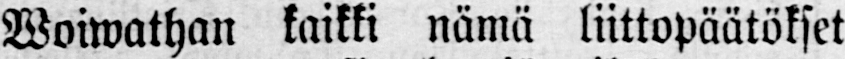Woiwathan kaikki nämä liittopäätökset
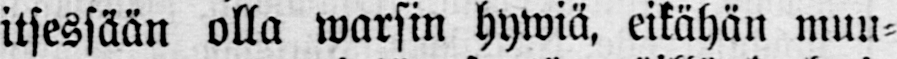itsessään olla warsin hywiä, eiköhän muu-
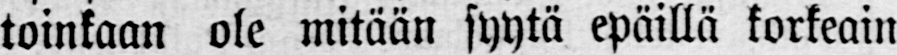toinkaan ole mitään syytä epäillä korkeain
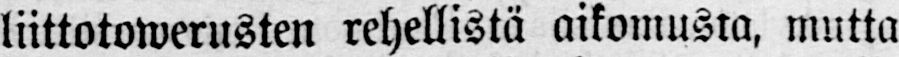liittotowerusten rehellistä aikomusta, mutta
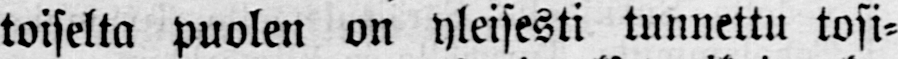toiselta puolen on yleisesti tunnettu tosi-
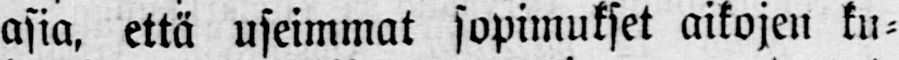asia, että useimmat sopimukset aikojen ku-
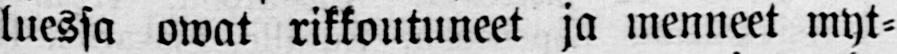luessa owat rikkoutuneet ja menneet myt-
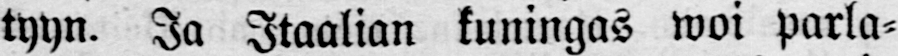tyyn. Ja Itaalian kuningas woi parla-
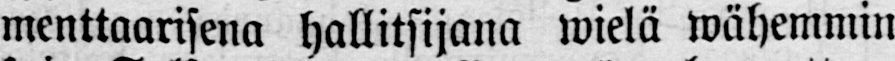menttaarisena hallitsijana wielä wähemmin
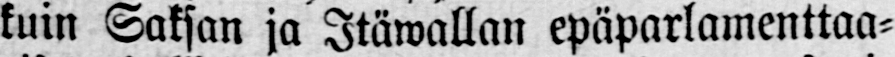kuin Saksan ja Itäwällan epäparlamenttaa-
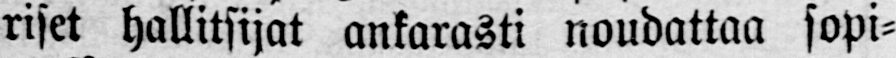riset hallitsijat ankarasti noudattaa sopi-
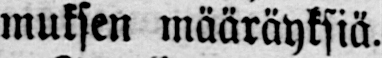muksen määräyksiä.
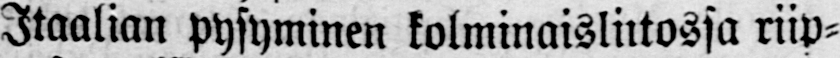Itaalian pysyminen kolminaisliitossa riip-
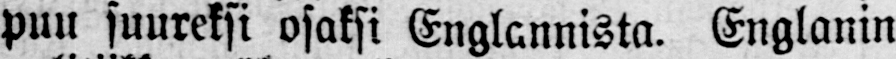puu suureksi osaksi Englannista. Englanin
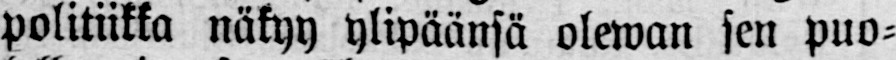politiikka näkyy ylipäänsä olewan sen puo-
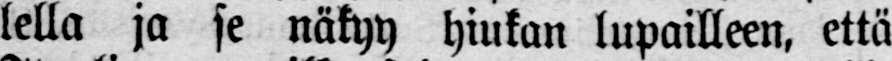lella ja se näkyy hiukan lupailleen, että
